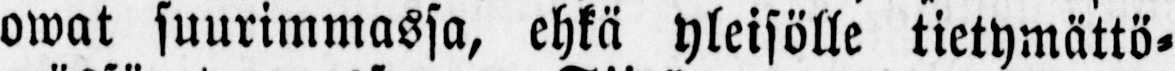owat suurimmassa, ehkä yleisölle tietymättö-
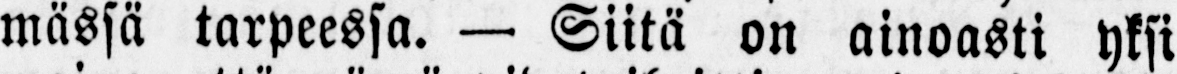mässä tarpeessa. — Siitä on ainoasti yksi
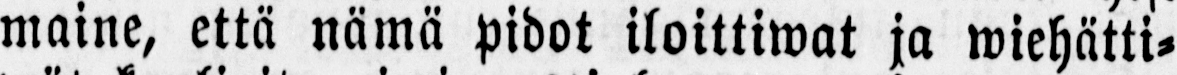maine, että nämä pidot iloittiwat ja wiehätti-
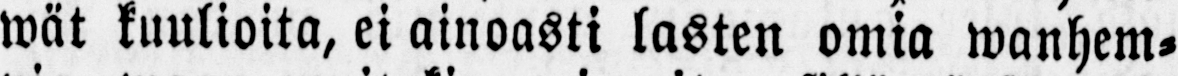wät kuulioita, ei ainoasti lasten omia wanhem-
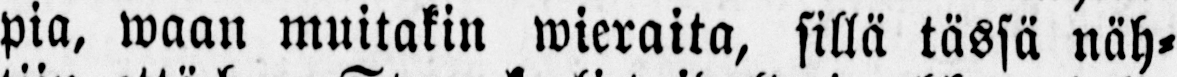pia, waan muitakin wieraita, sillä tässä näh-
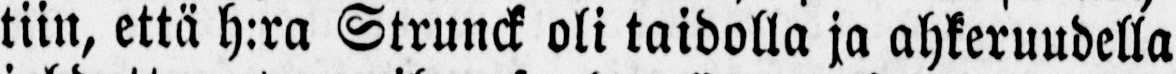tiin, että h:ra Strunck oli taidolla ja ahkeruudella
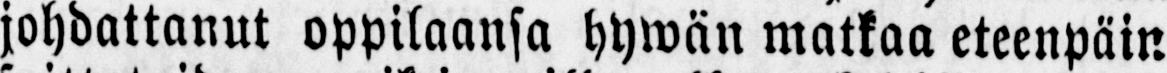johdattanut oppilaansa hywän matkaa eteenpäin
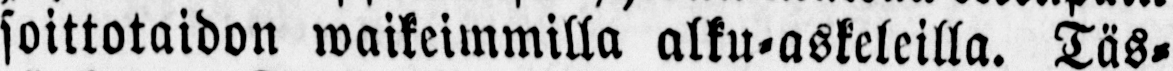soittotaidon waikeimmilla alku-askeleilla. Täs-
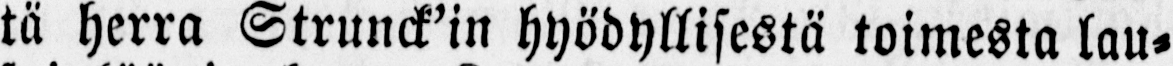tä herra Strunck’in hyödyllisestä toimesta lau-
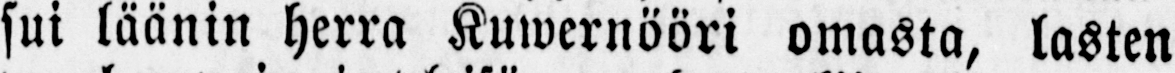sui läänin herra Kuwernööri omasta, lasten
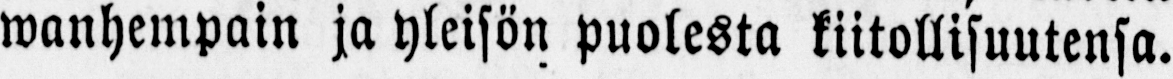wanhempain ja yleisön puolesta kiitollisuutensa.
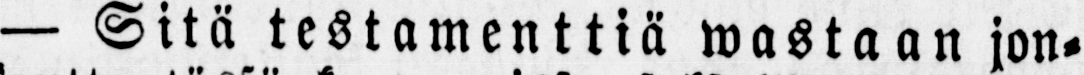— Sitä testamenttiä wastaan jon-
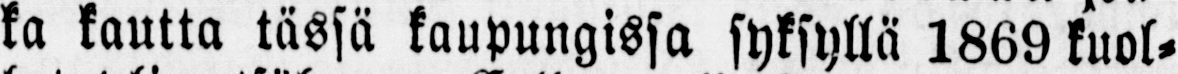ka kautta tässä kaupungissa syksyllä 1869 kuol-
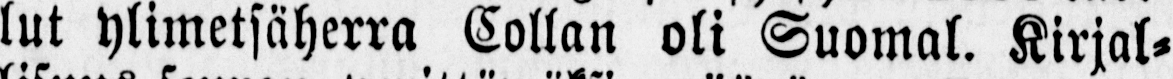lut ylimetsäherra Collan oli Suomal. Kirjal-
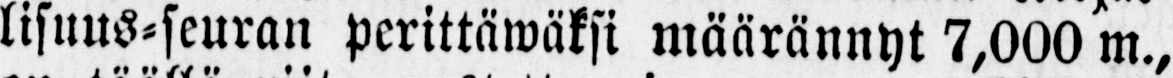lisuus-seuran perittäwäksi määrännyt 7,000 m.,
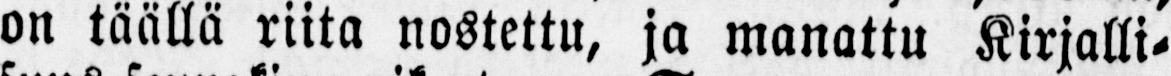on täällä riita nostettu, ja manattu Kirjalli-
